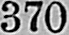370
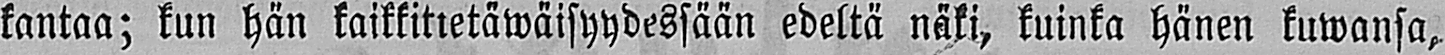kantaa; kun hän kaikkittetäwäisyydessään edeltä näki, kuinka hänen kuwansa,
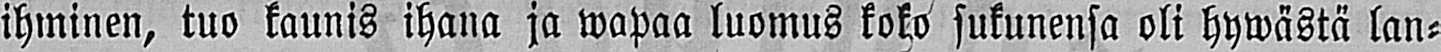ihminen, tuo kaunis ihana ja wapaa luomus koko sukunensa oli hywästä lan-
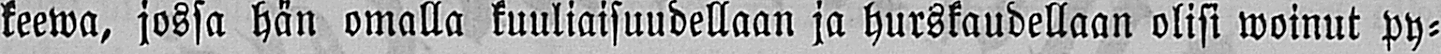keewa, jossa hän omalla kuuliaisuudellaan ja hurskaudellaan olisi woinut py-
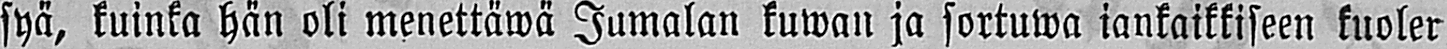syä, kuinka hän oli menettäwä Jumalan kuwan ja sortuwa iankaikkiseen kuoler
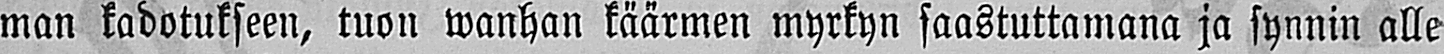man kadotukseen, tuon wanhan käärmen myrkyn saastuttamana ja synnin alle
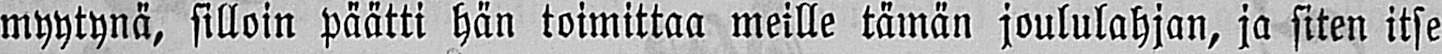myytynä, silloin päätti hän toimittaa meille tämän joululahjan, ja siten itse
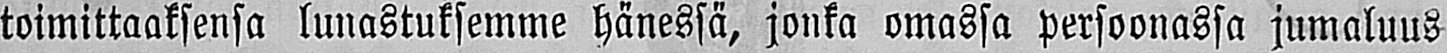toimittaaksensa lunastuksemme hänessä, jonka omassa persoonassa jumaluus
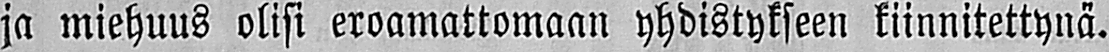ja miehuus olisi eroamattomaan yhdistykseen kiinnitettynä.
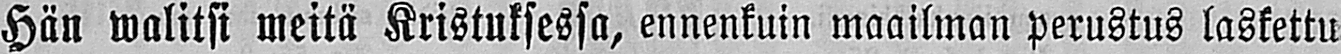Hän walitsi meitä Kristuksessa, ennenkuin maailman perustus laskettu
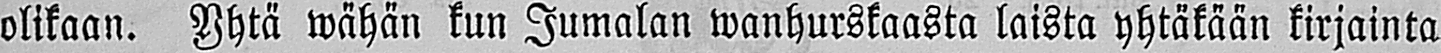olikaan. Yhtä wähän kun Jumalan wanhurskaasta laista yhtäkään kirjainta
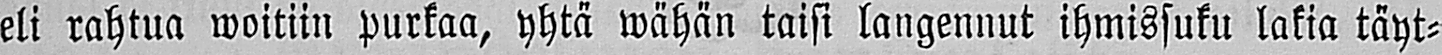eli rahtua woitiin purkaa, yhtä wähän taisi langennut ihmissuku lakia täyt-
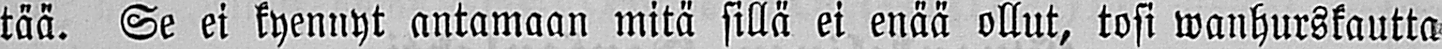tää. Se ei kyennyt antamaan mitä sillä ei enää ollut, tosi wanhurskautta
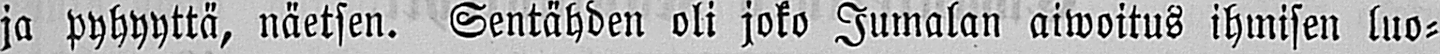ja pyhyyttä, näetsen. Sentähden oli joko Jumalan aiwoitus ihmisen luo-
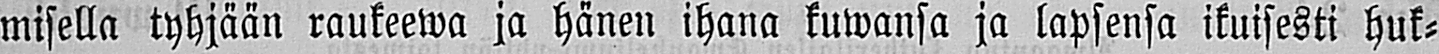misella tyhjään raukeewa ja hänen ihana kuwansa ja lapsensa ikuisesti huk-
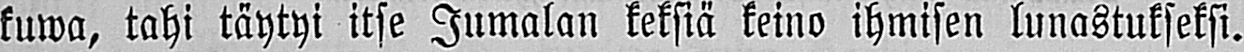kuwa, tahi täytyi itse Jumalan keksiä keino ihmisen lunastukseksi.
